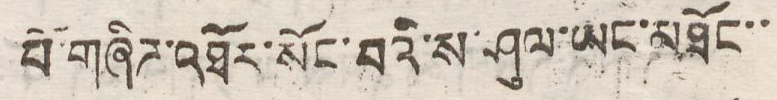པོ་གཞིཊ་འཐོར་སོང་བའི་ས་ཤུལ་ཡང་མཐོང་་
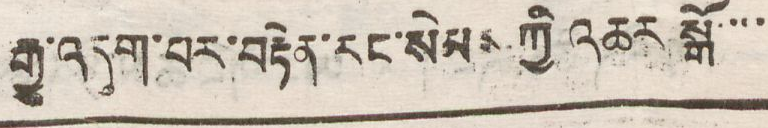རྒྱུ་འདུག་པར་བརྟེན་རང་སེམས ཀྱི འཆར སྒོ་་་
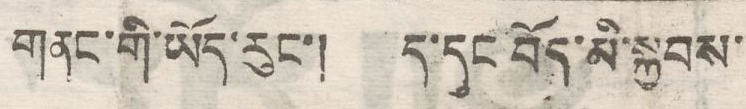གནང་གི་ཡོད་རུང་། ད་དུང བོད་མི་སྐྱབས་
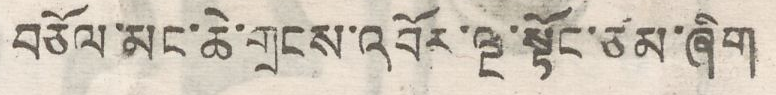བཅོལ་མང་ཆེ་གྲངས་འབོར་ལྔ་སྟོང་ཙམ་ཞིག
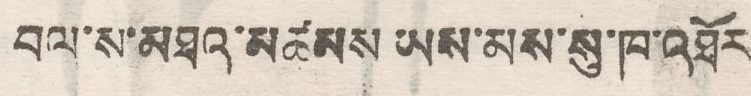བལ་ས་མཐའ་མཚམས ཡས་མས་སུ་ཁ་འཐོར
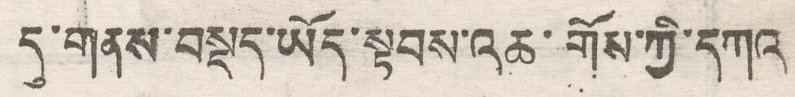དུ་གནས་བསྡད་ཡོད་སྟབས་འཆ་གོས་ཀྱི་དཀའ་
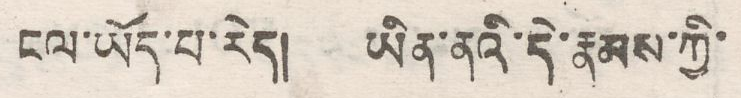ངལ་ཡོད་པ་རེད། ཡིན་ནའི་དེ་རྣམས་ཀྱི་
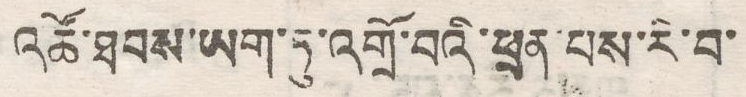འཚོ་ཐབས་ཡག་ཏུ་འགྲོ་བའི་ཕྲན་པས་རི་བ་
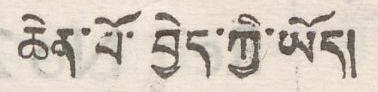ཆེན་པོ་བྱེད་ཀྱི་ཡོད།
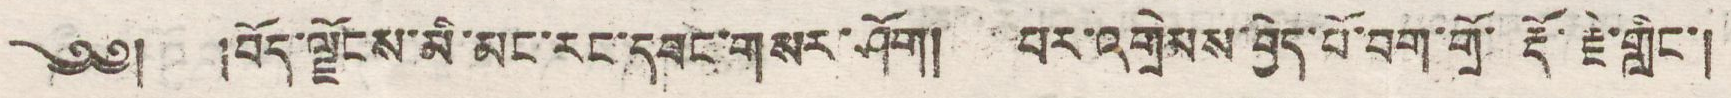༄༅། །བོད་ལྗོངས་མི་མང་རང་དབང་གསར་ཤོག། པར་འགྲེམས་བྱེད་པོ་བག་གྲོ་རྡོ་རྗེ་གླིང་།
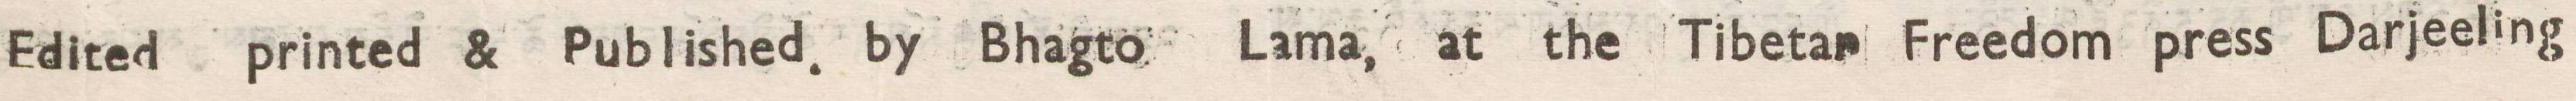Edited printed & Published, by Bhagto Lama, at the Tibetan Freedom press Darjeeling
